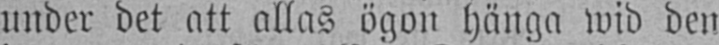under det att allas ögon hänga wid den
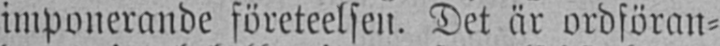imponerande företeelsen. Det är ordföran-
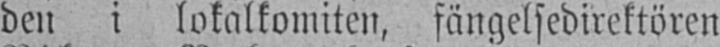den i lokalkomiten, fängelsedirektören
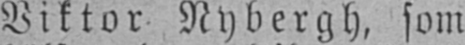Viktor Nybergh, som
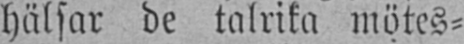hälsar de talrika mötes-
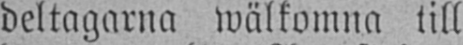deltagarna wälkomna till
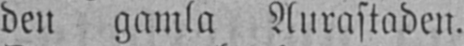den gamla Aurastaden.
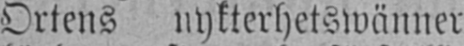Ortens nykterhetswänner
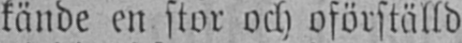kände en stor och oförställd
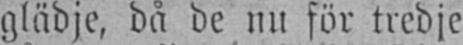glädje, då de nu för tredje
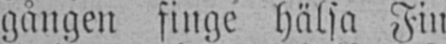gången finge hälsa Fin-
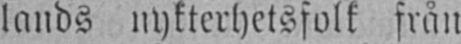lands nykterhetsfolk från
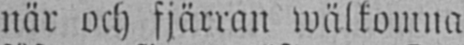när och fjärran wälkomna
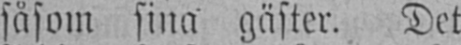såsom sina gäster. Det
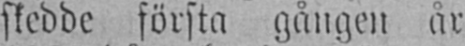skedde första gången år
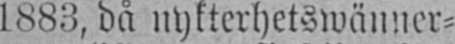1883, då nykterhetswänner-
